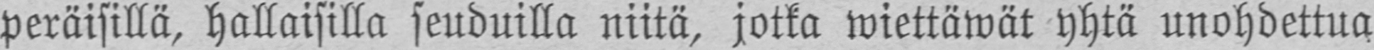peräisillä, hallaisilla seuduilla niitä, jotka wiettäwät yhtä unohdettua
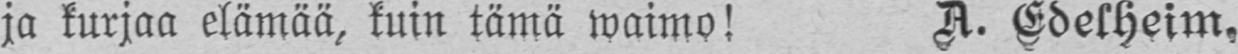ja kurjaa elämää, kuin tämä waimo! A. Edelheim.
